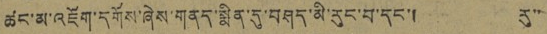ཚང་མ་འཇོག་དགོས་ཞེས་གནད་སྨིན་དུ་བཤད་མི་རུང་བ་དང་། རུ་་
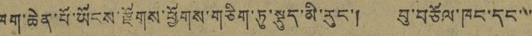ཁག་ཆེན་པོ་ཡོངས་རྫོགས་ཕྱོགས་གཅིག་ཏུ་སྡུད་མི་རུང་། བུ་བཅོལ་ཁང་དང་་་
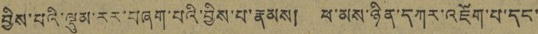བྱིས་པའི་ལྡུམ་རར་བཞག་པའི་བྱིས་པ་རྣམས། ཕ་མས་ཉིན་དཀར་འཇོག་པ་དང་
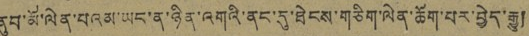ནུབ་མོ་ལེན་པའམ་ཡང་ན་ཉིན་འགའི་ནང་དུ་ཐེངས་གཅིག་ལེན་ཆོག་པར་བྱེད་རྒྱུ།
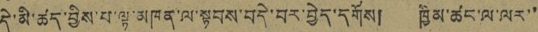དེ་མི་ཚད་བྱིས་པ་ལྟ་མཁན་ལ་སྟབས་བདེ་བར་བྱེད་དགོས། ཁྱིམ་ཚང་ལ་ལར་་
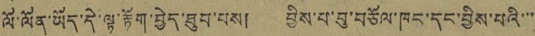ལོ་ལོན་ཡོད་དེ་ལྟ་རྟོག་བྱེད་ཐུབ་པས། བྱིས་པ་བུ་བཅོལ་ཁང་དང་བྱིས་པའི་་་་
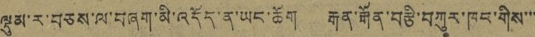ལྡུམ་ར་བཅས་ལ་བཞག་མི་འདོད་ན་ཡང་ཆོག རྒན་རྒོན་བརྩི་བཀུར་ཁང་གིས་་་
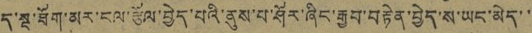ད་སྔ་ཐོག་མར་ངལ་རྩོལ་བྱེད་པའི་ནུས་པ་ཤོར་ཞིང་རྒྱབ་བརྟེན་བྱེད་ས་ཡང་མེད་་་
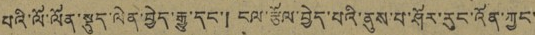པའི་ལོ་ལོན་སྡུད་ལེན་བྱེད་རྒྱུ་དང་། ངལ་རྩོལ་བྱེད་པའི་ནུས་པ་ཤོར་རུང་འོན་ཀྱང་
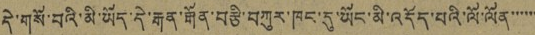དེ་གསོ་བའི་མི་ཡོད་དེ་རྒན་རྒོན་བརྩི་བཀུར་ཁང་དུ་ཡོང་མི་འདོད་པའི་ལོ་ལོན་་་་་་
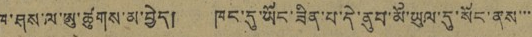ཁ་ཤས་ལ་ཨུ་ཚོགས་མ་བྱེད། ཁང་དུ་ཡོང་ཟིན་པ་དེ་ནུབ་མོ་ཡུལ་དུ་སོང་ནས་་་
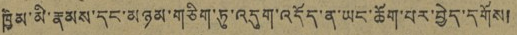ཁྱིམ་མི་རྣམས་དང་མཉམ་གཅིག་ཏུ་འདུག་འདོད་ན་ཡང་ཆོག་པར་བྱེད་དགོས།
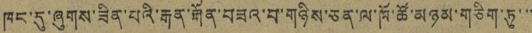ཁང་དུ་ཞུགས་ཟིན་པའི་རྒན་རྒོན་བཟའ་བ་གཉིས་ཅན་ལ་ཁོ་ཚོ་མཉམ་གཅིག་ཏུ་་་་
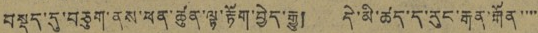བསྡད་དུ་བཅུག་ནས་ཕན་ཚུན་ལྟ་རྟོག་བྱེད་རྒྱུ། དེ་མི་ཚད་ད་རུང་རྒན་རྒོན་་་་
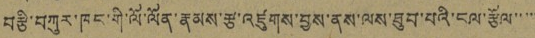བརྩི་བཀུར་ཁང་གི་ལོ་ལོན་རྣམས་རྩ་འཛུགས་བྱས་ནས་ལས་ཐུབ་པའི་ངལ་རྩོལ་་་་་
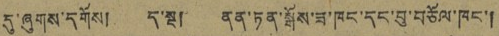དུ་ཞུགས་དགོས། ད་སྔ། ནན་ཏན་སྒོས་ཟ་ཁང་དང་བུ་བཅོལ་ཁང་།
